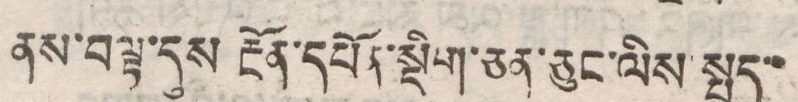ནས་བལྟ་དུས རྔོན་དཔོན་སྡིག་ཅན་ཅུང་ལིས སྤྲད་་
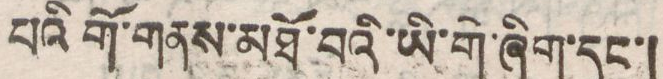པའི གོ་གནས་མཐོ་བའི་ཡི་གེ་ཞིག་དང་།
